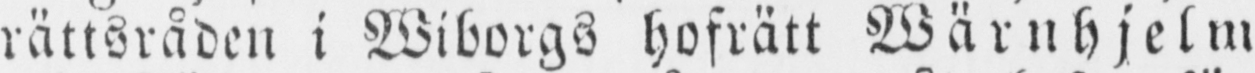rättsråden i Wiborgs hofrätt Wärnhjelm
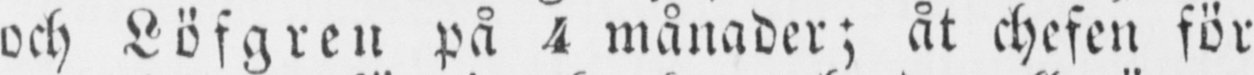och Löfgren på 4 månader; åt chefen för
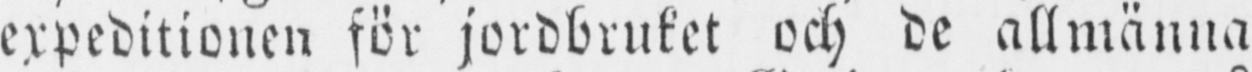expeditionen för jordbruket och de allmänna
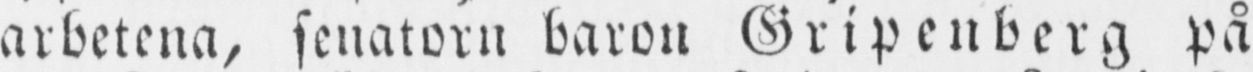arbetena, senatorn baron Gripenberg på
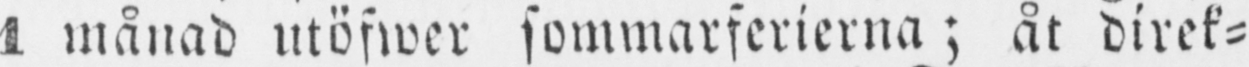1 månad utöfwer sommarferierna; åt direk-
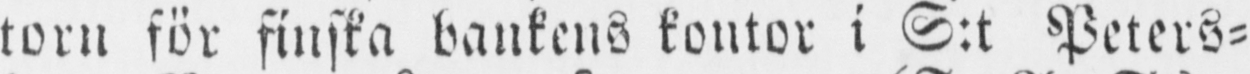torn för finska bankens kontor i S:t Peters-
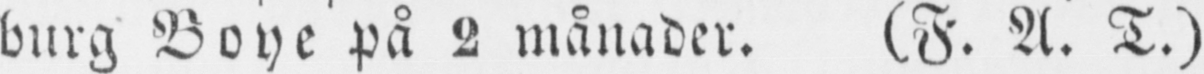burg Boye på 2 månader. (F. A. T.)
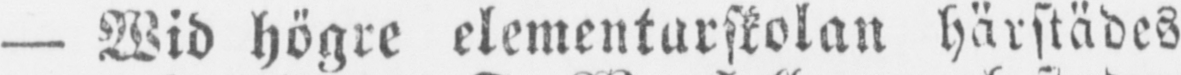— Wid högre elementarskolan härstädes
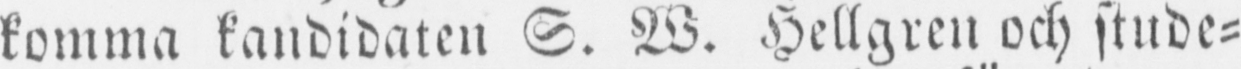komma kandidaten S. Hellgren och stude-
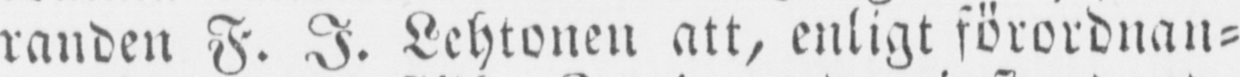randen F. I. Lehtonen att, enligt förordnan-
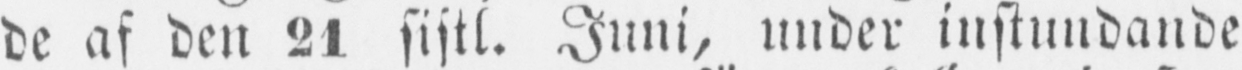de af den 21 sistl. Juni, under instundande
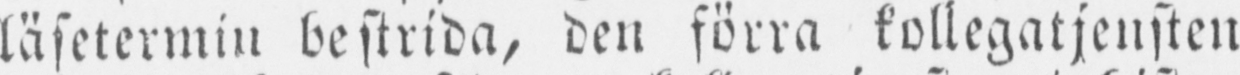läsetermin bestrida, den förra kollegatjensten
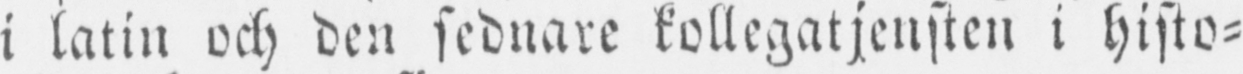i latin och den sednare kollegatjensten i histo-
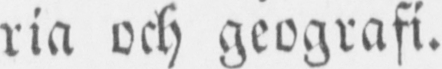ria och geografi.
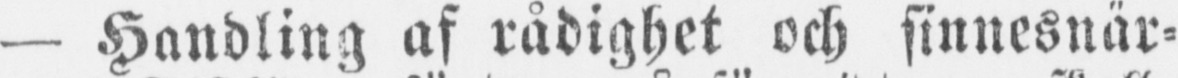— Handling af rådighet och sinnesnär-
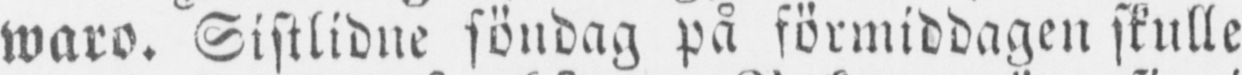waro. Sistlidne söndag på förmiddagen skulle
